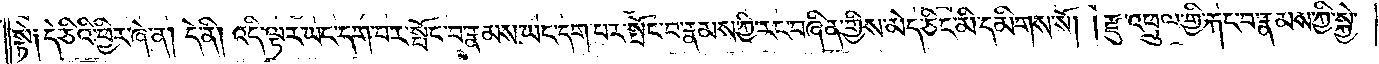སྟེ༏ དེ་ཅིའི་ཕྱིར་ཞེ་ན། དེ་ནི། འདི་ལྟར་ཡང་དག་པར་སྤོང་བ་རྣམས་ཡང་དག་པར་སྤོང་བ་རྣམས་ཀྱི་རང་བཞིན་གྱིས་མེད་ཅིང་མི་དམིགས་སོ། །རྫུ་འཕྲུལ་གྱི་རྐང་པ་རྣམས་ཀྱི་སྐྱེ་
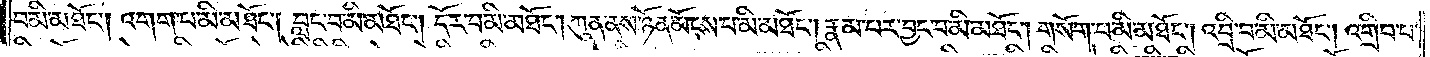བ་མི་མཐོང༌། འགག་པ་མི་མཐོང༌། བླང་བ་མི་མཐོང༌། དོར་བ་མི་མཐོང༌། ཀུན་ནས་ཉོན་མོངས་པ་མི་མཐོང༌། རྣམ་པར་བྱང་བ་མི་མཐོང༌། གསོག་པ་མི་མཐོང༌། འབྲི་བ་མི་མཐོང༌། འགྲིབ་པ་
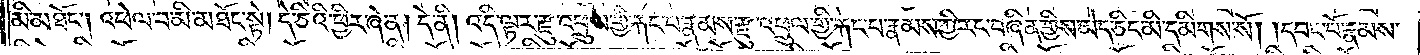མི་མཐོང༌། འཕེལ་བ་མི་མཐོང་སྟེ། དེ་ཅིའི་ཕྱིར་ཞེ་ན། དེ་ནི། འདི་ལྟར་རྫུ་འཕྲུལ་གྱི་རྐང་པ་རྣམས་རྫུ་འཕྲུལ་གྱི་རྐང་པ་རྣམས་ཀྱི་རང་བཞིན་གྱིས་མེད་ཅིང་མི་དམིགས་སོ། །དབང་པོ་རྣམས་
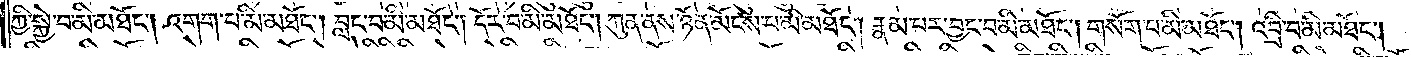ཀྱི་སྐྱེ་བ་མི་མཐོང༌། འགག་པ་མི་མཐོང༌། བླང་བ་མི་མཐོང༌། དོར་བ་མི་མཐོང༌། ཀུན་ནས་ཉོན་མོངས་པ་མི་མཐོང༌། རྣམ་པར་བྱང་བ་མི་མཐོང༌། གསོག་པ་མི་མཐོང༌། འབྲི་བ་མི་མཐོང༌།
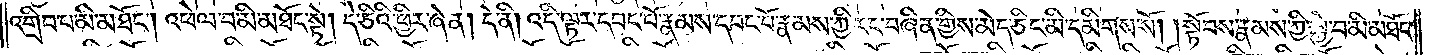འགྲིབ་པ་མི་མཐོང༌། འཕེལ་བ་མི་མཐོང་སྟེ། དེ་ཅིའི་ཕྱིར་ཞེ་ན། དེ་ནི། འདི་ལྟར་དབང་པོ་རྣམས་དབང་པོ་རྣམས་ཀྱི་རང་བཞིན་གྱིས་མེད་ཅིང་མི་དམིགས་སོ། །སྟོབས་རྣམས་ཀྱི་སྐྱེ་བ་མི་མཐོང་
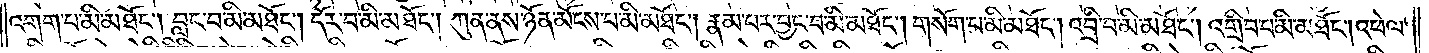འགག་པ་མི་མཐོང༌། བླང་བ་མི་མཐོང༌། དོར་བ་མི་མཐོང༌། ཀུན་ནས་ཉོན་མོངས་པ་མི་མཐོང༌། རྣམ་པར་བྱང་བ་མི་མཐོང༌། གསོག་པ་མི་མཐོང༌། འབྲི་བ་མི་མཐོང༌། འགྲིབ་པ་མི་མཐོང༌། འཕེལ་
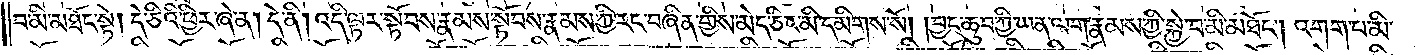བ་མི་མཐོང་སྟེ། དེ་ཅིའི་ཕྱིར་ཞེ་ན། དེ་ནི། འདི་ལྟར་སྟོབས་རྣམས་སྟོབས་རྣམས་ཀྱི་རང་བཞིན་གྱིས་མེད་ཅིང་མི་དམིགས་སོ། །བྱང་ཆུབ་ཀྱི་ཡན་ལག་རྣམས་ཀྱི་སྐྱེ་བ་མི་མཐོང༌། འགག་པ་མི་
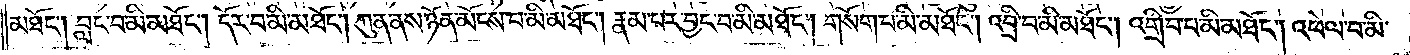མཐོང༌། བླང་བ་མི་མཐོང༌། དོར་བ་མི་མཐོང༌། ཀུན་ནས་ཉོན་མོངས་པ་མི་མཐོང༌། རྣམ་པར་བྱང་བ་མི་མཐོང༌། གསོག་པ་མི་མཐོང༌། འབྲི་བ་མི་མཐོང༌། འགྲིབ་པ་མི་མཐོང༌། འཕེལ་བ་མི་
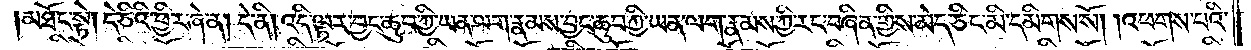མཐོང་སྟེ། དེ་ཅིའི་ཕྱིར་ཞེ་ན། དེ་ནི། འདི་ལྟར་བྱང་ཆུབ་ཀྱི་ཡན་ལག་རྣམས་བྱང་ཆུབ་ཀྱི་ཡན་ལག་རྣམས་ཀྱི་རང་བཞིན་གྱིས་མེད་ཅིང་མི་དམིགས་སོ། །འཕགས་པའི་
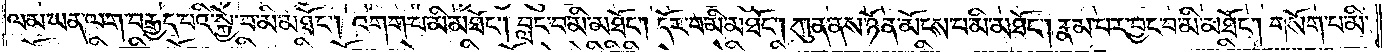ལམ་ཡན་ལག་བརྒྱད་པའི་སྐྱེ་བ་མི་མཐོང༌། འགག་པ་མི་མཐོང༌། བླང་བ་མི་མཐོང༌། དོར་བ་མི་མཐོང༌། ཀུན་ནས་ཉོན་མོངས་པ་མི་མཐོང༌། རྣམ་པར་བྱང་བ་མི་མཐོང༌། གསོག་པ་མི་
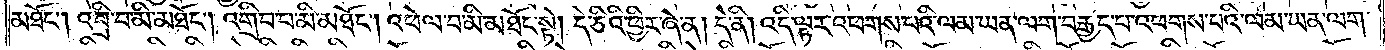མཐོང༌། འབྲི་བ་མི་མཐོང༌། འགྲིབ་པ་མི་མཐོང༌། འཕེལ་བ་མི་མཐོང་སྟེ། དེ་ཅིའི་ཕྱིར་ཞེ་ན། དེ་ནི། འདི་ལྟར་འཕགས་པའི་ལམ་ཡན་ལག་བརྒྱད་པ་འཕགས་པའི་ལམ་ཡན་ལག་
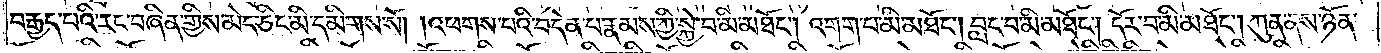བརྒྱད་པའི་རང་བཞིན་གྱིས་མེད་ཅིང་མི་དམིགས་སོ། །འཕགས་པའི་བདེན་པ་རྣམས་ཀྱི་སྐྱེ་བ་མི་མཐོང༌། འགག་པ་མི་མཐོང༌། བླང་བ་མི་མཐོང༌། དོར་བ་མི་མཐོང༌། ཀུན་ནས་ཉོན་
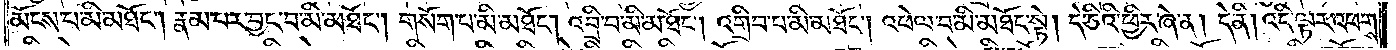མོངས་པ་མི་མཐོང༌། རྣམ་པར་བྱང་བ་མི་མཐོང༌། གསོག་པ་མི་མཐོང༌། འབྲི་བ་མི་མཐོང༌། འགྲིབ་པ་མི་མཐོང༌། འཕེལ་བ་མི་མཐོང་སྟེ། དེ་ཅིའི་ཕྱིར་ཞེ་ན། དེ་ནི། འདི་ལྟར་འཕགས་
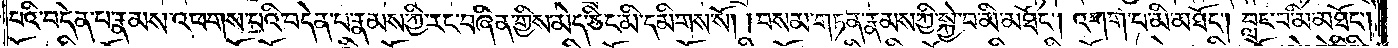པའི་བདེན་པ་རྣམས་འཕགས་པའི་བདེན་པ་རྣམས་ཀྱི་རང་བཞིན་གྱིས་མེད་ཅིང་མི་དམིགས་སོ། །བསམ་གཏན་རྣམས་ཀྱི་སྐྱེ་བ་མི་མཐོང༌། འགག་པ་མི་མཐོང༌། བླང་བ་མི་མཐོང༌།
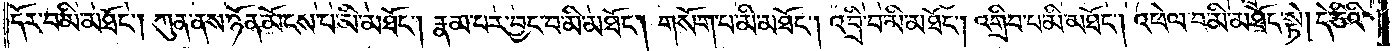དོར་བ་མི་མཐོང༌། ཀུན་ནས་ཉོན་མོངས་པ་མི་མཐོང༌། རྣམ་པར་བྱང་བ་མི་མཐོང༌། གསོག་པ་མི་མཐོང༌། འབྲི་བ་མི་མཐོང༌། འགྲིབ་པ་མི་མཐོང༌། འཕེལ་བ་མི་མཐོང་སྟེ། དེ་ཅིའི་
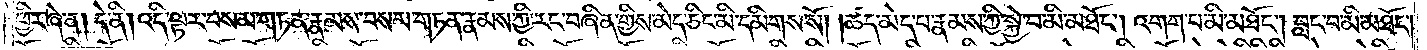ཕྱིར་ཞེ་ན། དེ་ནི། འདི་ལྟར་བསམ་གཏན་རྣམས་བསམ་གཏན་རྣམས་ཀྱི་རང་བཞིན་གྱིས་མེད་ཅིང་མི་དམིགས་སོ། །ཚད་མེད་པ་རྣམས་ཀྱི་སྐྱེ་བ་མི་མཐོང༌། འགག་པ་མི་མཐོང༌། བླང་བ་མི་མཐོང༌།
